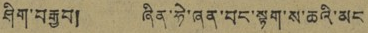ཤིག་བརྒྱབ། ཞིན་ཧེ་ཞན་བང་སྟག་ས་ཆའི་མང
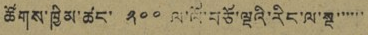ཚོགས་ཁྱིམ་ཚང་ ༢༠༠ ལ་ལོ་བཅོ་ལྔའི་རིང་ལ་སྔ་་་་་་
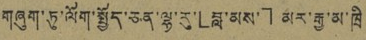གཞུག་ཏུ་ལོག་སྤྱོད་ཅན་ལྷ་རུ་「བླ་མས་」མར་རྒྱ་མ་ཁྲི
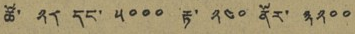ཚོ་ ༢༨ དང་ ༥༠༠༠ རྟ་ ༢༤༠ ནོར་ ༣༢༠༠
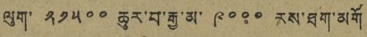ལུག་ ༢༡༥༠༠ ཆུར་བ་རྒྱ་མ་ ༩༠༠༠ རས་ཐག་མགོ
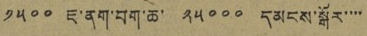༡༥༠༠ ཇ་ནག་བག་ཆ་ ༢༥༠༠༠ དམངས་སྒོར་་་་
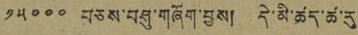༡༥༠༠༠ བཅས་བཤུ་གཞོག་བྱས། དེ་མི་ཚད་ཚ་རུ་
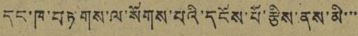དང་ཁ་བཏགས་ལ་སོགས་པའི་དངོས་པོ་རྩིས་ནས་མི་་་་
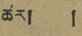ཚར། །
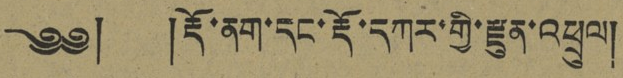༄༅། །རྡོ་ནག་དང་རྡོ་དཀར་གྱི་རྫུན་འཕྲུལ།
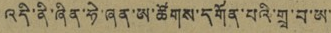འདི་ནི་ཞིན་ཧེ་ཞན་ཨ་ཚོགས་དགོན་པའི་གྲྭ་བ་ཨ་
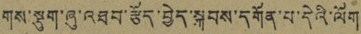གས་སྡུག་ཞུ་འཐབ་རྩོད་བྱེད་སྐབས་དགོན་པ་དེའི་ལོག
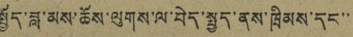་སྤྱོད་བླ་མས་ཆོས་ལུགས་ལ་བེད་སྤྱད་ནས་ཁྲིམས་དང་་
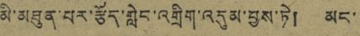མི་མཐུན་པར་རྩོད་གླེང་འགྲིག་འདུམ་བྱས་ཏེ། མང་
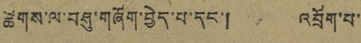ཚོགས་ལ་བཤུ་གཞོག་བྱེད་པ་དང་། འབྲོག་པ་
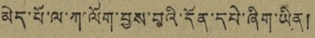མེད་པོ་ལ་ཀ་ལོག་བྱས་པའི་དོན་དཔེ་ཞིག་ཡིན།
